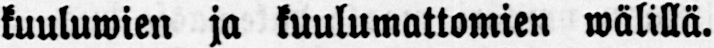kuuluwien ja kuulumattomien wälillä.
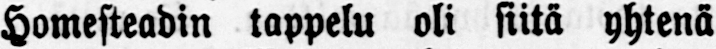Homesteadin tappelu oli siitä yhtenä
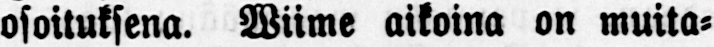osoituksena. Wiime aikoina on muita-
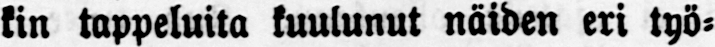kin tappeluita kuulunut näiden eri työ-
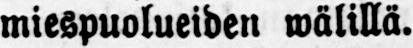miespuolueiden wälillä.
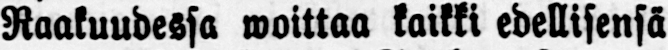Raakuudessa woittaa kaikki edellisensä
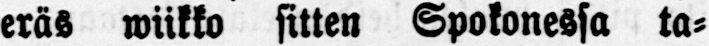eräs wiikko sitten Spokonessa ta-
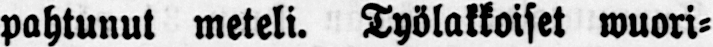pahtunut meteli. Työlakkoiset wuori-
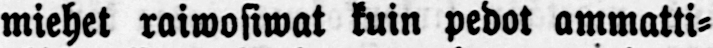miehet raiwosiwat kuin pedot ammatti-
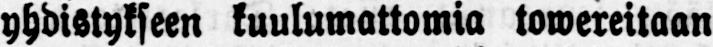yhdistykseen kuulumattomia towereitaan
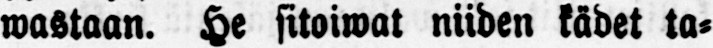wartaan. He sttoiwat niiden kädet ta-
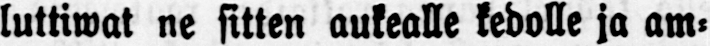luttiwat ne sitten aukealle kedolle ja am-
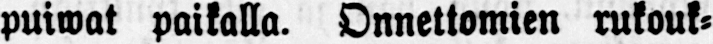puiwat paikalla. Onnettomien rukouk-
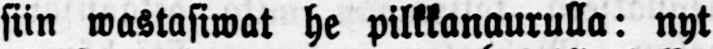siin wastasiwat he pilkkanaurulla: nyt
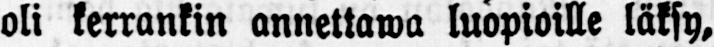oli kerrankin annettawa luopioille läksy,
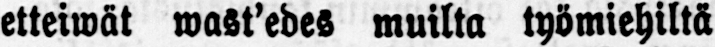etteiwät wast'edes muilta työmiehiltä
